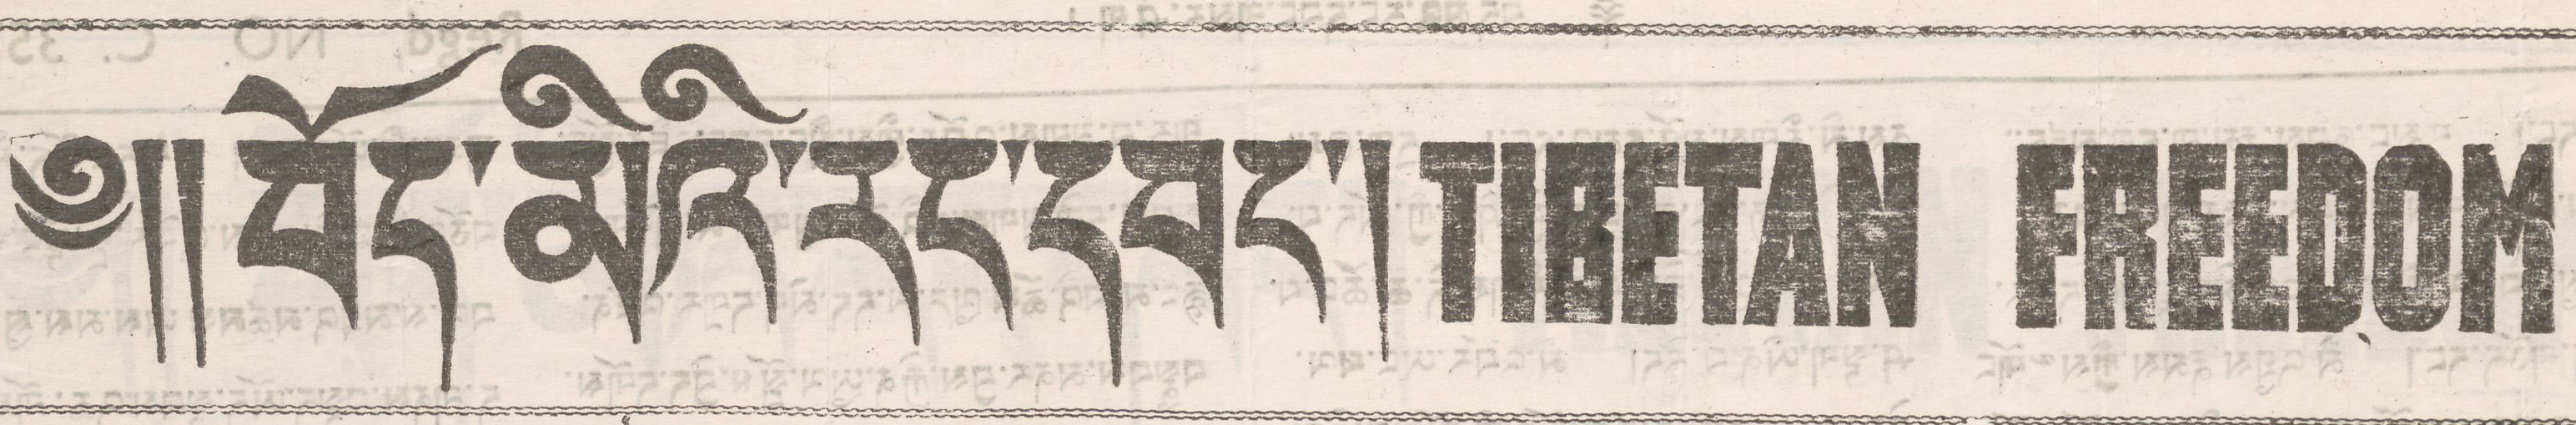༄།། བོད་མིའི་རང་དབང་། TIBETAN FREEDOM
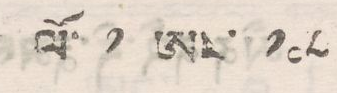ལོ་ ༡ ཨ་ ༡༠༨
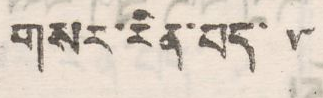གསར་རིན་པད་ ༥
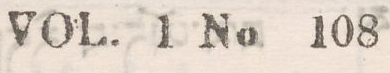VOL. 1 No 108
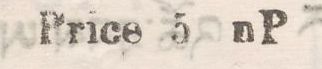Price 5 nP
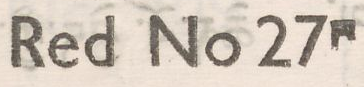Red No 27
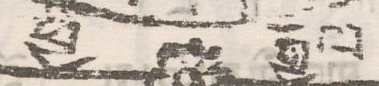ཕྱི   རྒྱལ
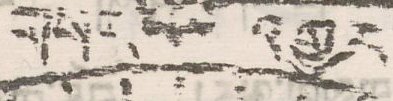གསར    འགྱུར
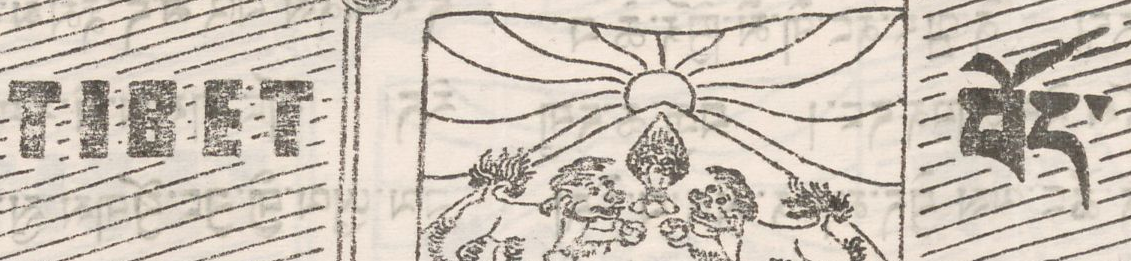TIBET བོད་
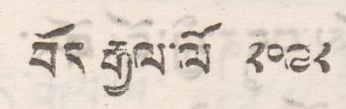བོད རྒྱལ་ལོ ༢༠༩༨
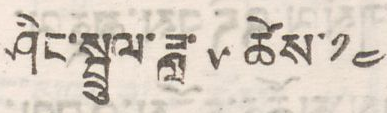ཤིང་སྦྲུལ་ཟླ་ ༦ ཚེས་ ༡༤
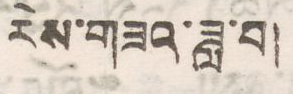རེས་གཟའ་ཟླ་བ།
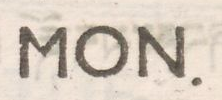MON.
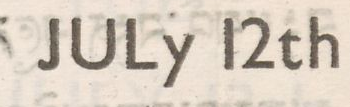JULy 12th
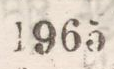1965
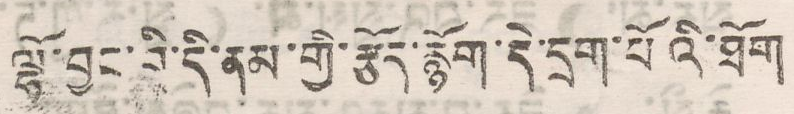ལྷོ་བྱང་བི་དི་ནམ་གྱི་རྩོད་རྙོག་དེ་དྲག་པོའི་ཐོག
